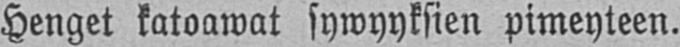Henget katoawat sywyyksien pimeyteen.
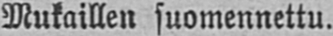Mukaillen suomennettu.
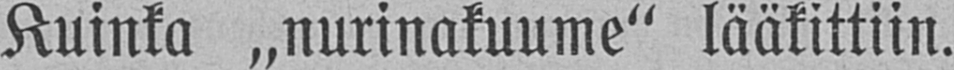Kuinka „nurinakuume" lääkittiin.
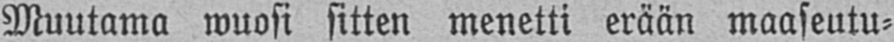Muutama wuosi sitten menetti erään maaseutu-
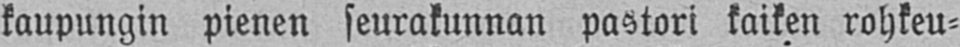kaupungin pienen seurakunnan pastori kaiken rohkeu-
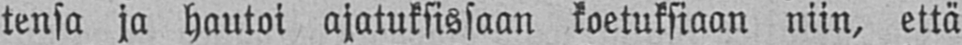tensa ja hautoi ajatuksissaan koetuksiaan niin, että
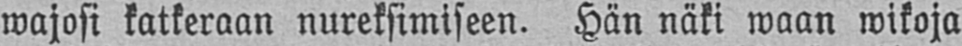wajosi katkeraan nureksimiseen. Hän näki waan wikoja
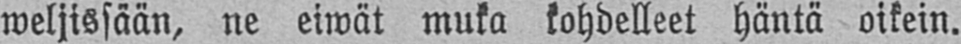weljissään, ne eiwät muka kohdelleet häntä oikein.
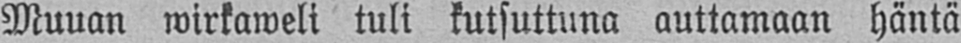Muuan wirkaweli tuli kutsuttuna auttamaan häntä
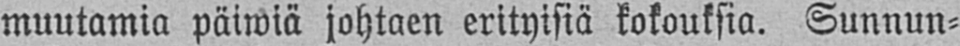muutamia päiwiä johtaen erityisiä kokouksia. Sunnun-
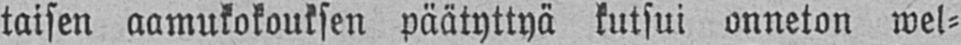taisen aamukokouksen päätyttyä kutsui onneton wel-
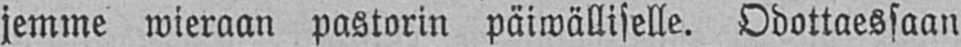jemme wieraan pastorin päiwällijelle. Odottaessaan
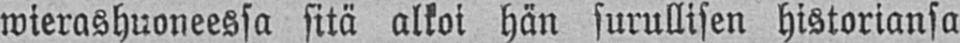wierashuoneessa sitä alkoi hän surullisen historiansa
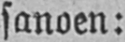sanoen:
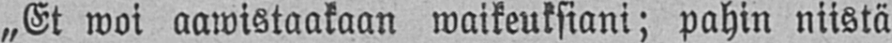„Et woi aawistaakaan waikeuksiani; pahin niistä
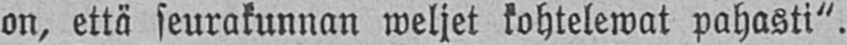on, että seurakunnan weljet kohtelewat pahasti".
